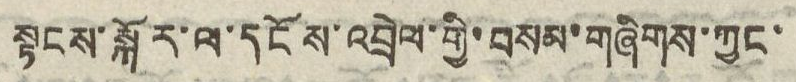སྟངས་སྐོར་ལ་དངོས་འབྲེལ་གྱི་བསམ་གཞིགས་ཀྱང་
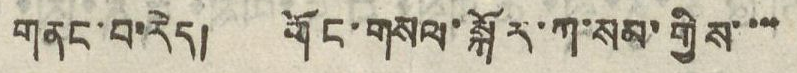གནང་བ་རེད། གོང་གསལ་སྐོར་ཀ་སམ་གྱིས་་་་
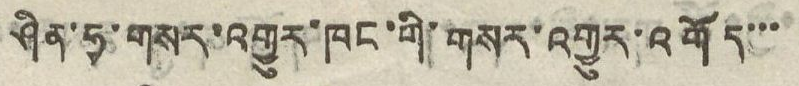ཤིན་ཧྭ་གསར་འགྱུར་ཁང་གི་གསར་འགྱུར་འགོད་་་
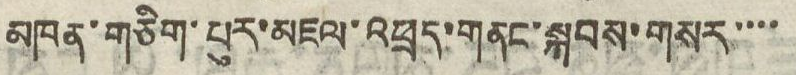མཁན་གཅིག་པུར་མཇལ་འཕྲད་གནང་སྐབས་གསར་་་་
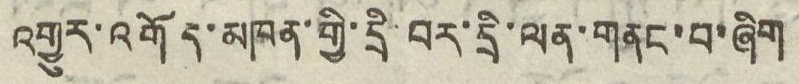འགྱུར་འགོད་མཁན་གྱི་དྲི་བར་དྲི་ལན་གནང་བ་ཞིག
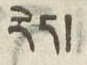རེད།
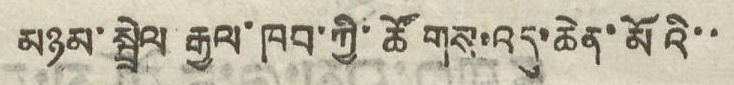མཉམ་སྦྲེལ རྒྱལ་ཁབ་ཀྱི་ཚོགས་འདུ་ཆེན་མོའི་་
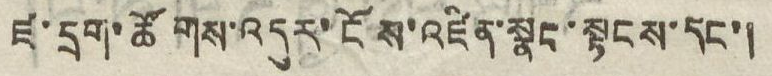ཛ་དྲག་ཚོགས་འདུར་ངོས་འཛིན་སྣང་སྟངས་དང་།
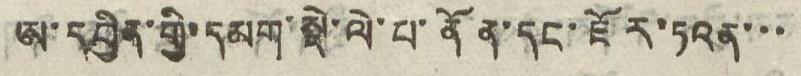ཨ་དབྱིན་གྱི་དམག་སྡེ་ལེ་པ་ནོན་དང་ཇོར་ཏའན་་་
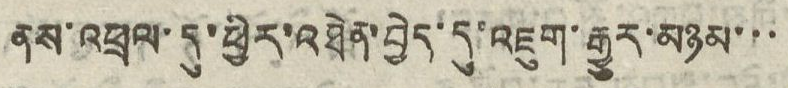ནས་འཕྲལ་དུ་ཕྱིར་འཐེན་བྱེད་དུ་འཇུག་རྒྱུར་མཉམ་་་
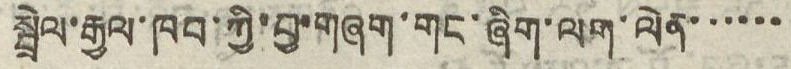སྦྲེལ་རྒྱལ་ཁབ་ཀྱི་བྱ་གཞག་གང་ཞིག་ལག་ལེན་་་་་་
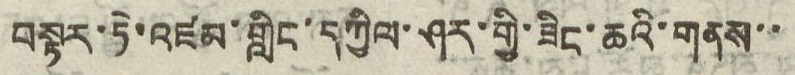བསྟར་ཏེ་འཛམ་གླིང་དཀྱིལ་ཤར་གྱི་ཟིང་ཆའི་གནས་་
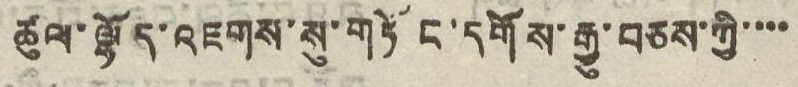ཚུལ་ལྷོད་འཇགས་སུ་གཏོང་དགོས་རྒྱུ་བཅས་ཀྱི་་་་
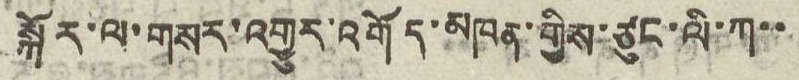སྐོར་ལ་གསར་འགྱུར་འགོད་མཁན་གྱིས་ཙུང་ལི་ཀ་་
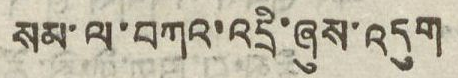སམ་ལ་བཀའ་འདྲི་ཞུས་འདུག
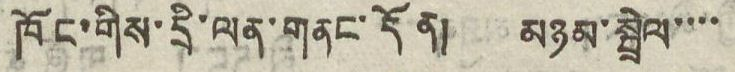ཁོང་གིས་དྲི་ལན་གནང་དོན། མཉམ་སྦྲེལ་་་་
